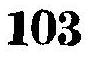103
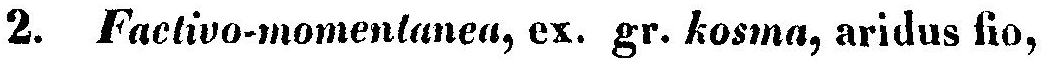2. Factivo-momentanea, ex. gr. kosma, aridus fio,
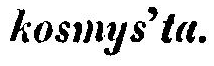kosmys'ta.
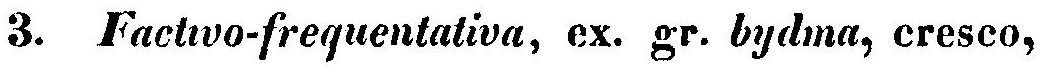3. Factivo-frequentativa, ex. gr. bydma, cresco,
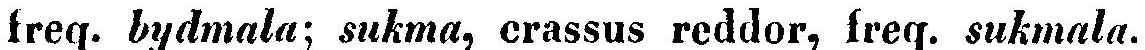freq. bydmala; sukma, crassus reddor, freq. sukmala.
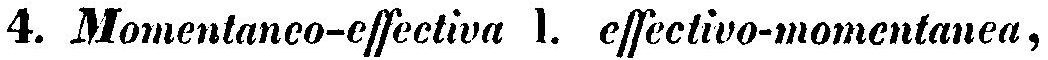4. Momentanco-effectiva 1. essectivo-momentanea,
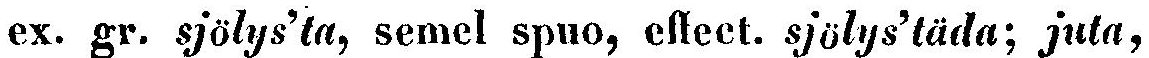ex. gr. sjölys'ta, semel spuo, effect. sjölys'täda; juta,
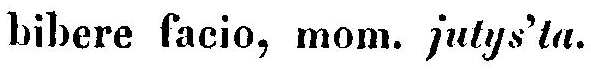bibere facio, mom. jutys'ta.
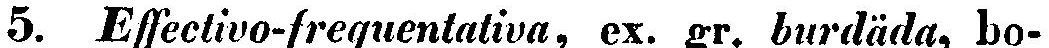5. Essectivo-frequentativa, ex. gr. burdäda, bo-
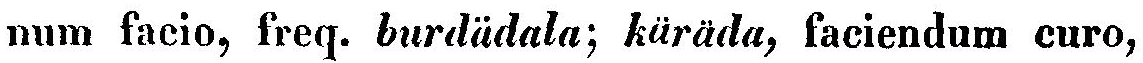num facio, freq. burdädala; käräda, faciendum curo,
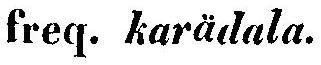freq. karädala.
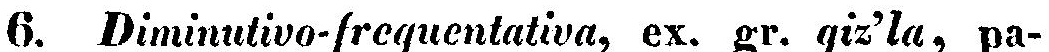6. Diminutivo-frequentativa, ex. gr. giz'la, pa-
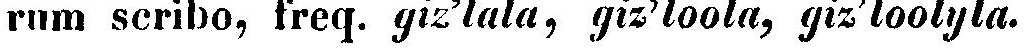rum scribo, freq. giz'lala, giz'loola, giz'loolyla.
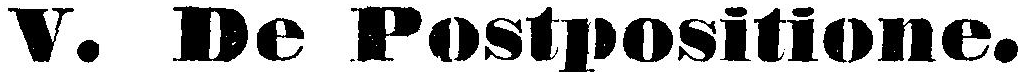V. De Postpositione.
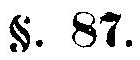§. 87.
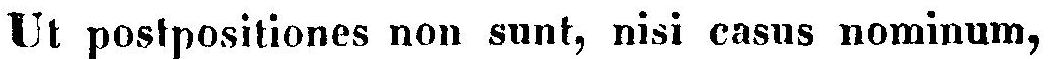Ut postpositiones non sunt, nisi casus nominum,
